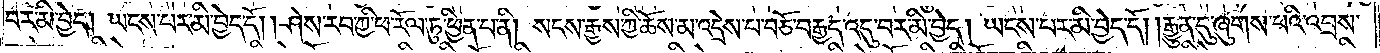བར་མི་བྱེད། ཡངས་པར་མི་བྱེད་དོ། །ཤེས་རབ་ཀྱི་ཕ་རོལ་ཏུ་ཕྱིན་པ་ནི། སངས་རྒྱས་ཀྱི་ཆོས་མ་འདྲེས་པ་བཅོ་བརྒྱད་འདུ་བར་མི་བྱེད། ཡངས་པར་མི་བྱེད་དོ། །རྒྱུན་དུ་ཞུགས་པའི་འབྲས་
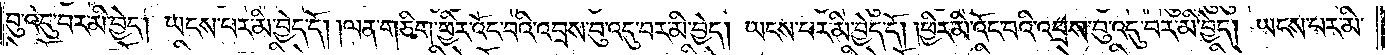བུ་འདུ་བར་མི་བྱེད། ཡངས་པར་མི་བྱེད་དོ། །ལན་གཅིག་ཕྱིར་འོང་བའི་འབྲས་བུ་འདུ་བར་མི་བྱེད། ཡངས་པར་མི་བྱེད་དོ། །ཕྱིར་མི་འོང་བའི་འབྲས་བུ་འདུ་བར་མི་བྱེད། ཡངས་པར་མི་
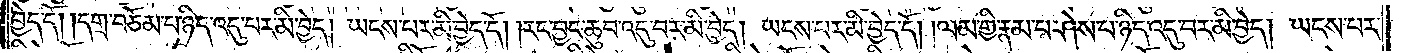བྱེད་དོ། །དགྲ་བཅོམ་པ་ཉིད་འདུ་བར་མི་བྱེད། ཡངས་པར་མི་བྱེད་དོ། །རང་བྱང་ཆུབ་འདུ་བར་མི་བྱེད། ཡངས་པར་མི་བྱེད་དོ། །ལམ་གྱི་རྣམ་པ་ཤེས་པ་ཉིད་འདུ་བར་མི་བྱེད། ཡངས་པར་
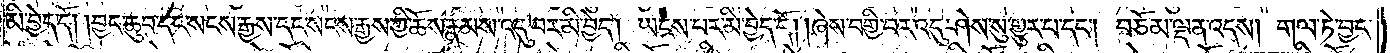མི་བྱེད་དོ། །བྱང་ཆུབ་དང་སངས་རྒྱས་དང་སངས་རྒྱས་ཀྱི་ཆོས་རྣམས་འདུ་བར་མི་བྱེད། ཡངས་པར་མི་བྱེད་དོ། །ཞེས་བགྱི་བར་འདུ་ཤེས་སུ་གྱུར་པ་དང༌། བཅོམ་ལྡན་འདས། གལ་ཏེ་བྱང་
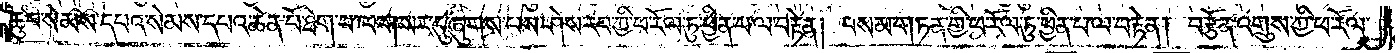ཆུབ་སེམས་དཔའ་སེམས་དཔའ་ཆེན་པོ་ཐེག་པ་ལ་གསར་དུ་ཞུགས་པས་ཤེས་རབ་ཀྱི་ཕ་རོལ་ཏུ་ཕྱིན་པ་ལ་བརྟེན། བསམ་གཏན་གྱི་ཕ་རོལ་ཏུ་ཕྱིན་པ་ལ་བརྟེན། བརྩོན་འགྲུས་ཀྱི་ཕ་རོལ་
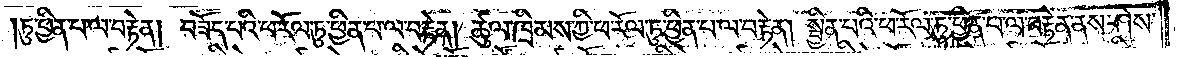ཏུ་ཕྱིན་པ་ལ་བརྟེན། བཟོད་པའི་ཕ་རོལ་ཏུ་ཕྱིན་པ་ལ་བརྟེན། ཚུལ་ཁྲིམས་ཀྱི་ཕ་རོལ་ཏུ་ཕྱིན་པ་ལ་བརྟེན། སྦྱིན་པའི་ཕ་རོལ་ཏུ་ཕྱིན་པ་ལ་བརྟེན་ནས་ཤེས་
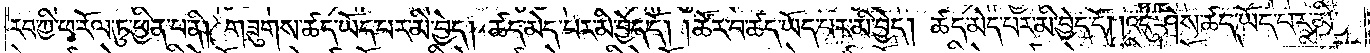རབ་ཀྱི་ཕ་རོལ་ཏུ་ཕྱིན་པ་ནི། གཟུགས་ཚད་ཡོད་པར་མི་བྱེད། ཚད་མེད་པར་མི་བྱེད་དོ། །ཚོར་བ་ཚད་ཡོད་པར་མི་བྱེད། ཚད་མེད་པར་མི་བྱེད་དོ། །འདུ་ཤེས་ཚད་ཡོད་པར་མི་
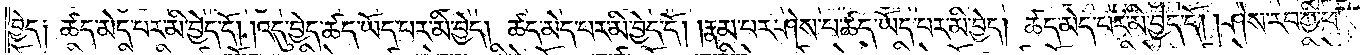བྱེད༑ ཚད་མེད་པར་མི་བྱེད་དོ། །འདུ་བྱེད་ཚད་ཡོད་པར་མི་བྱེད། ཚད་མེད་པར་མི་བྱེད་དོ། །རྣམ་པར་ཤེས་པ་ཚད་ཡོད་པར་མི་བྱེད། ཚད་མེད་པར་མི་བྱེད་དོ། །ཤེས་རབ་ཀྱི་ཕ་
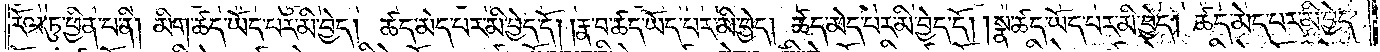རོལ་ཏུ་ཕྱིན་པ་ནི། མིག་ཚད་ཡོད་པར་མི་བྱེད། ཚད་མེད་པར་མི་བྱེད་དོ། །རྣ་བ་ཚད་ཡོད་པར་མི་བྱེད། ཚད་མེད་པར་མི་བྱེད་དོ། །སྣ་ཚད་ཡོད་པར་མི་བྱེད། ཚད་མེད་པར་མི་བྱེད་
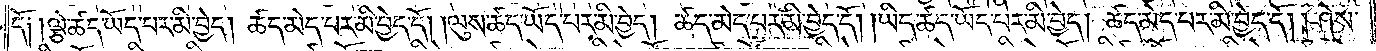དོ༑ ༑ལྕེ་ཚད་ཡོད་པར་མི་བྱེད། ཚད་མེད་པར་མི་བྱེད་དོ། །ལུས་ཚད་ཡོད་པར་མི་བྱེད། ཚད་མེད་པར་མི་བྱེད་དོ། །ཡིད་ཚད་ཡོད་པར་མི་བྱེད། ཚད་མེད་པར་མི་བྱེད་དོ། །ཤེས་
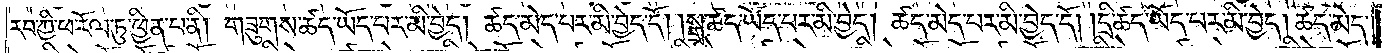རབ་ཀྱི་ཕ་རོལ་ཏུ་ཕྱིན་པ་ནི། གཟུགས་ཚད་ཡོད་པར་མི་བྱེད། ཚད་མེད་པར་མི་བྱེད་དོ། །སྒྲ་ཚད་ཡོད་པར་མི་བྱེད། ཚད་མེད་པར་མི་བྱེད་དོ། །དྲི་ཚད་ཡོད་པར་མི་བྱེད། ཚད་མེད་
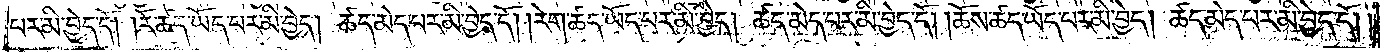པར་མི་བྱེད་དོ། །རོ་ཚད་ཡོད་པར་མི་བྱེད། ཚད་མེད་པར་མི་བྱེད་དོ། །རེག་ཚད་ཡོད་པར་མི་བྱེད། ཚད་མེད་པར་མི་བྱེད་དོ། །ཆོས་ཚད་ཡོད་པར་མི་བྱེད། ཚད་མེད་པར་མི་བྱེད་དོ། །
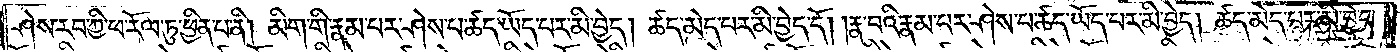ཤེས་རབ་ཀྱི་ཕ་རོལ་ཏུ་ཕྱིན་པ་ནི། མིག་གི་རྣམ་པར་ཤེས་པ་ཚད་ཡོད་པར་མི་བྱེད། ཚད་མེད་པར་མི་བྱེད་དོ། །རྣ་བའི་རྣམ་པར་ཤེས་པ་ཚད་ཡོད་པར་མི་བྱེད། ཚད་མེད་པར་མི་བྱེད་
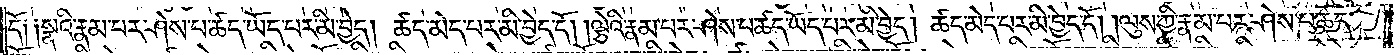དོ༑ ༑སྣའི་རྣམ་པར་ཤེས་པ་ཚད་ཡོད་པར་མི་བྱེད། ཚད་མེད་པར་མི་བྱེད་དོ། །ལྕེའི་རྣམ་པར་ཤེས་པ་ཚད་ཡོད་པར་མི་བྱེད། ཚད་མེད་པར་མི་བྱེད་དོ། །ལུས་ཀྱི་རྣམ་པར་ཤེས་པ་ཚད་
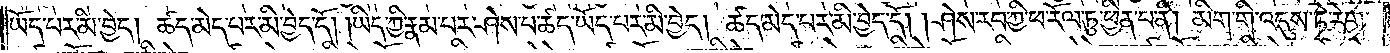ཡོད་པར་མི་བྱེད། ཚད་མེད་པར་མི་བྱེད་དོ། །ཡིད་ཀྱི་རྣམ་པར་ཤེས་པ་ཚད་ཡོད་པར་མི་བྱེད། ཚད་མེད་པར་མི་བྱེད་དོ། །ཤེས་རབ་ཀྱི་ཕ་རོལ་ཏུ་ཕྱིན་པ་ནི། །མིག་གི་འདུས་ཏེ་རེག་
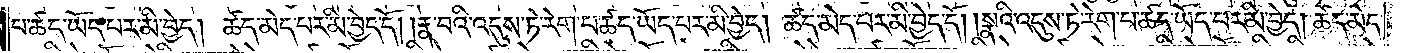པ་ཚད་ཡོད་པར་མི་བྱེད། ཚད་མེད་པར་མི་བྱེད་དོ། །རྣ་བའི་འདུས་ཏེ་རེག་པ་ཚད་ཡོད་པར་མི་བྱེད། ཚད་མེད་པར་མི་བྱེད་དོ། །སྣའི་འདུས་ཏེ་རེག་པ་ཚད་ཡོད་པར་མི་བྱེད། ཚད་མེད་
